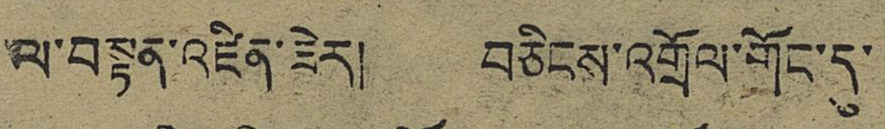ལ་བསྟན་འཛིན་ཟེར། བཅིངས་འགྲོལ་གོང་དུ་
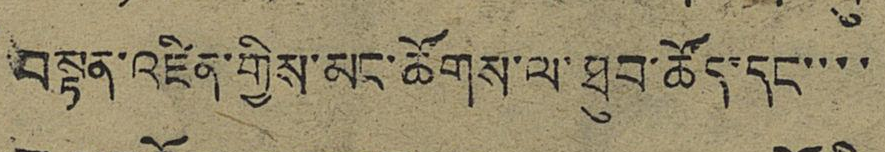བསྟན་འཛིན་གྱིས་མང་ཚོགས་ལ་ཐུབ་ཚོད་དང་་་་
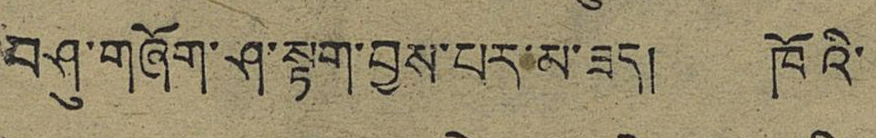བཤུ་གཞོག་ཤ་སྟག་བྱས་པར་མ་ཟད། ཁོའི་
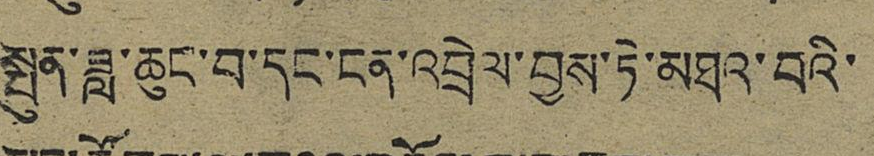སྤུན་ཟླ་ཆུང་བ་དང་ངན་འབྲེལ་བྱས་ཏེ་མཐའ་བའི་
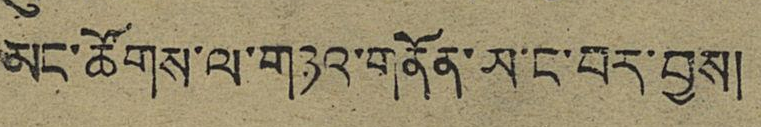མང་ཚོགས་ལ་གཉའ་གནོན་མ་ང་བར་བྱས།
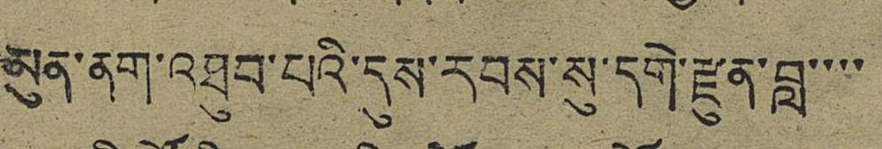མུན་ནག་འཐབ་པའི་དུས་རབས་སུ་དགེ་རྫུན་བླ་་་་
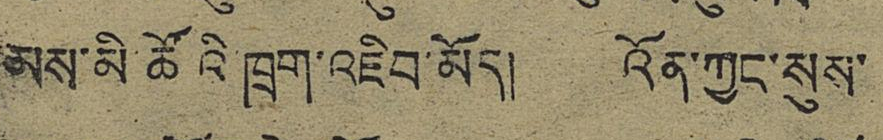མས་མི་ཚོའི ཁྲག་འཇིབ་མོད། འོན་ཀྱང་སུས་
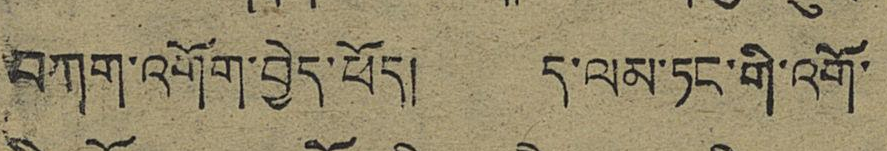བཀག་འགོག་བྱེད་ཕོད། ད་ལམ་ཏང་གི་འགོ་
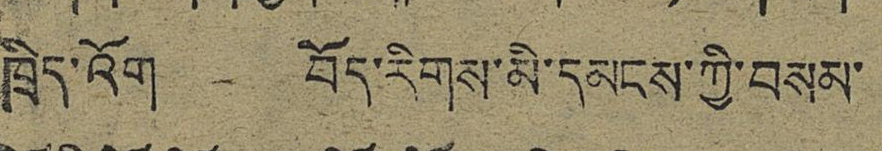ཁྲིད་འོག བོད་རིགས་མི་དམངས་ཀྱི་བསམ་
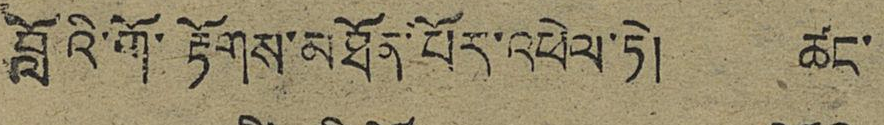བློའི་གོ་རྟོགས་མཐོན་པོར་འཕེལ་ཏེ། ཚང་
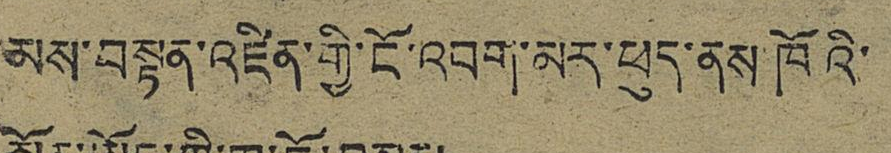མས་བསྟན་འཛིན་གྱི་ངོ་འབག་མར་ཕུད་ནས་ཁོའི་
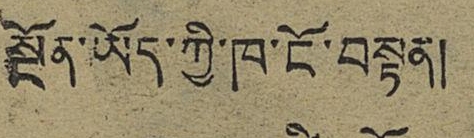སྔོན་ཡོད་ཀྱི་ཁ་ངོ་བསྟན།
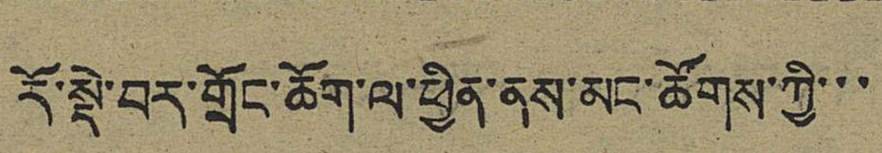རོ་སྡེ་བར་གྲོང་ཆོག་ལ་ཕྱིན་ནས་མང་ཚོགས་ཀྱི་་་
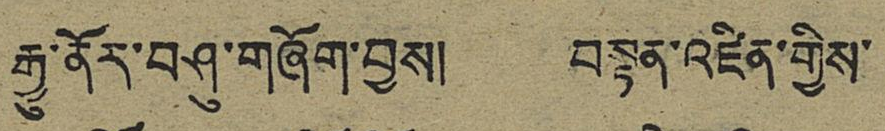རྒྱུ་ནོར་བཤུ་གཞོག་བྱས། བསྟན་འཛིན་གྱིས་
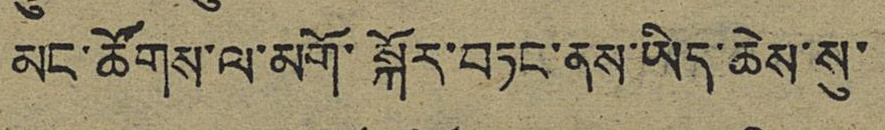མང་ཚོགས་ལ་མགོ་སྐོར་བཏང་ནས་ཡིད་ཆེས་སུ་
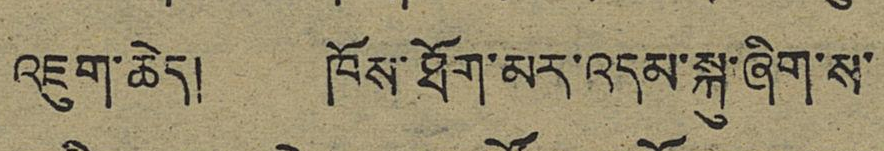འཇུག་ཆེད། ཁོས་ཐོག་མར་འདམ་སྐུ་ཞིག་ས་
